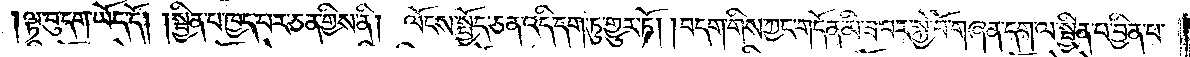ལྟ་བུ་དག་ཡོད་དོ། །སྦྱིན་པ་ཁྱད་པར་ཅན་གྱིས་ནི། ལོངས་སྤྱོད་ཅན་འདི་དག་ཏུ་གྱུར་ཏོ། །བདག་གིས་ཀྱང་གདོན་མི་ཟ་བར་སྐྱེ་བོ་གཞན་དག་ལ་སྦྱིན་པ་བྱིན་པ་
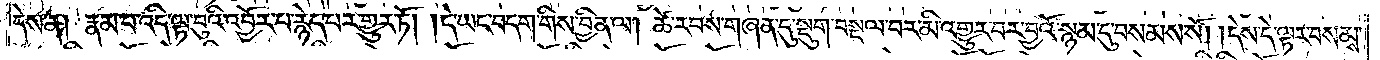དེས་ན། རྣམ་པ་འདི་ལྟ་བུའི་འབྱོར་པ་རྙེད་པར་གྱུར་ཏོ། །དེ་ཡང་བདག་གིས་བྱིན་ལ། ཚེ་རབས་གཞན་དུ་སྡུག་བསྔལ་བར་མི་འགྱུར་བར་བྱའོ་སྙམ་དུ་བསམས་སོ། །དེས་དེ་ལྟར་བསམས་
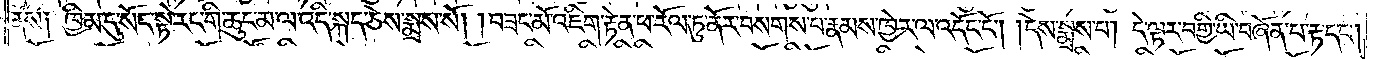ནས༑ ཁྱིམ་དུ་སོང་སྟེ་རང་གི་ཆུང་མ་ལ་འདི་སྐད་ཅེས་སྨྲས་སོ། །བཟང་མོ་འཇིག་རྟེན་ཕ་རོལ་ཏུ་ནོར་བསགས་པ་རྣམས་ཁྱེར་ལ་འདོང་ངོ༌། །དེས་སྨྲས་པ། དེ་ལྟར་བགྱི་ཡི་བཞོན་པ་རྟ་དང༌།
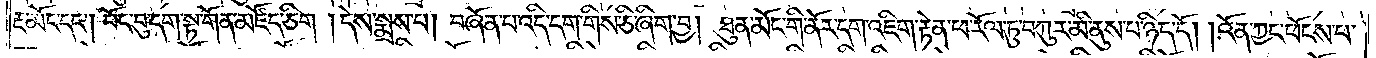རྔ་མོང་དང༌། བོང་བུ་དག་སྟ་གོན་མཛོད་ཅིག །དེས་སྨྲས་པ། བཞོན་པ་འདི་དག་གིས་ཅི་ཞིག་བྱ། ཐུན་མོང་གི་ནོར་དག་འཇིག་རྟེན་ཕ་རོལ་ཏུ་བཀུར་མི་ནུས་པ་ཉིད་དོ། །འོན་ཀྱང་ཕོངས་པ་
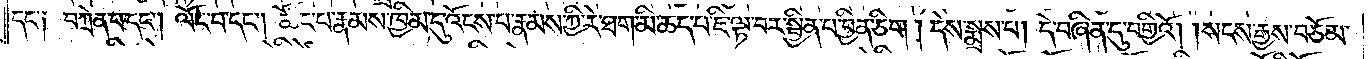དང་༑ བཀྲེན་པ་དང༌། ལོང་བ་དང༌། ཚོང་པ་རྣམས་ཁྱིམ་དུ་འོངས་པ་རྣམས་ཀྱི་རེ་ཐག་མི་ཆད་པ་ཇི་ལྟ་བར་སྦྱིན་པ་བྱིན་ཅིག །དེས་སྨྲས་པ། དེ་བཞིན་དུ་བགྱིའོ། །སངས་རྒྱས་བཅོམ་
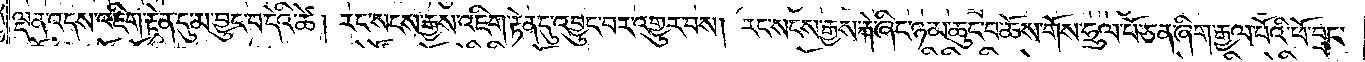ལྡན་འདས་འཇིག་རྟེན་དུ་མ་བྱུང་བ་དེའི་ཚེ། རང་སངས་རྒྱས་འཇིག་རྟེན་དུ་འབྱུང་བར་འགྱུར་བས། རང་སངས་རྒྱས་རྐེ་ཞིང་ཉམ་ཆུང་བ་ཆོས་གོས་ཧྲུལ་པོ་ཅན་ཞིག་རྒྱལ་པོའི་ཕོ་བྲང་
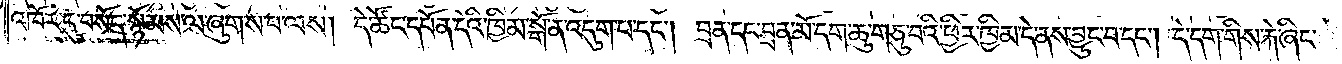འཁོར་དུ་བསོད་སྙོམས་ལ་ཞུགས་པ་ལས། དེ་ཚོང་དཔོན་དེའི་ཁྱིམ་སྒོ་ན་འདུག་པ་དང༌། བྲན་དང་བྲན་མོ་དག་ཆུ་གཅུ་བའི་ཕྱིར་ཁྱིམ་དེ་ནས་བྱུང་བ་དང༌། དེ་དག་གིས་རྐེ་ཞིང་
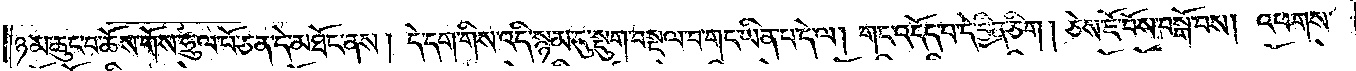ཉམ་ཆུང་བ་ཆོས་གོས་ཧྲུལ་པོ་ཅན་དེ་མཐོང་ནས། དེ་དག་གིས་འདི་སྙམ་དུ་སྡུག་བསྔལ་བ་གང་ཡིན་པ་དེ་ལ། གང་འདོད་པ་དེ་བྱིན་ཅིག། ཅེས་ཇོ་བོས་བསྒོ་བས། འཕགས་
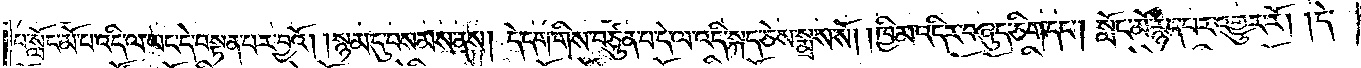པ་སློང་མོ་པ་འདི་ལ་ཡང་དེ་བསྟན་པར་བྱའོ། །སྙམ་དུ་བསམས་ནས། དེ་དག་གིས་བཙུན་པ་དེ་ལ་འདི་སྐད་ཅེས་སྨྲས་སོ། །ཁྱིམ་འདིར་བཞུད་ཅིག་དང༌། སློང་མོ་རྙེད་པར་འགྱུར་རོ། །དེ་
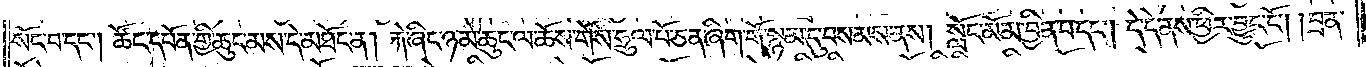སོང་བ་དང༌། ཚོང་དཔོན་གྱི་ཆུང་མས་དེ་མཐོང་ན། རྐེ་ཞིང་ཉམ་ཆུང་ལ་ཆོས་གོས་ཧྲུལ་པོ་ཅན་ཞིག་གོ་སྙམ་དུ་བསམས་ནས། སློང་མོ་མ་བྱིན་པ་དང༌། དེ་དེ་ནས་ཕྱིར་བྱུང་ངོ༌། །བྲན་
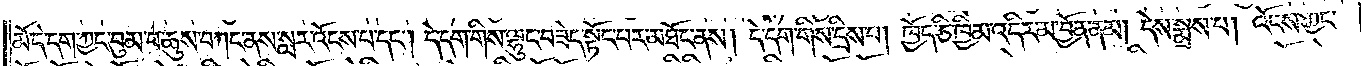མོ་དེ་དག་ཀྱང་བུམ་པ་ཆུས་བཀང་ནས་སླར་འོངས་པ་དང༌། དེ་དག་གིས་ལྷུང་བཟེད་སྟོང་པར་མཐོང་ནས། དེ་དག་གིས་དྲིས་པ། ཁྱོད་ཅི་ཁྱིམ་འདིར་མ་བྱོན་ནམ། དེས་སྨྲས་པ། འོངས་ཀྱང་
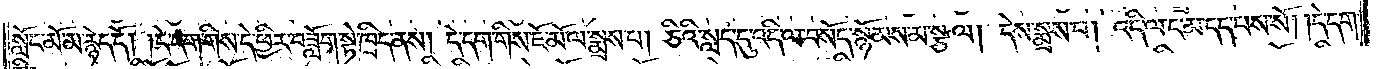སློང་མོ་མ་རྙེད་དོ། །དེ་དག་གིས་དེ་ཕྱིར་བཟློག་སྟེ་ཁྲིད་ནས། དེ་དག་གིས་ཇོ་མོ་ལ་སྨྲས་པ། ཅིའི་སླད་དུ་འདི་ལ་བསོད་སྙོམས་མ་སྩལ། དེས་སྨྲས་པ། འདི་ལ་ང་མ་དད་པས་སོ། །དེ་དག་
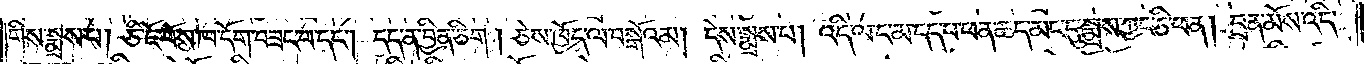གིས་སྨྲས་པ། ཅི་ཇོ་བོས་ཁ་དོག་བཟང་བ་དང༌། དད་ན་བྱིན་ཅིག། ཅེས་ཁྱོད་ལ་བསྒོའམ། དེས་སྨྲས་པ། འདི་ལ་ང་མ་དད་པ་ཕན་ཆད་མང་དུ་སྨྲས་ཀྱང་ཅི་ཕན། བྲན་མོས་འདི་
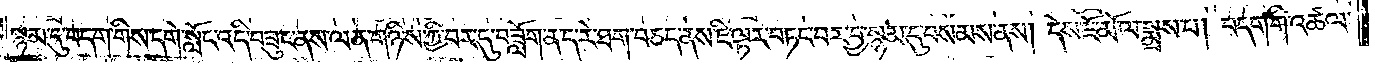སྙམ་དུ་བདག་གིས་དགེ་སློང་འདི་བཟུང་ནས་ལན་གཉིས་ཀྱི་བར་དུ་བཟློག་ན་ད་རེ་ཐག་བཅད་ནས་ཇི་ལྟར་བཏང་བར་བྱ་སྙམ་དུ་བསམས་ནས། དེས་ཇོ་མོ་ལ་སྨྲས་པ། བདག་གི་འཚལ་
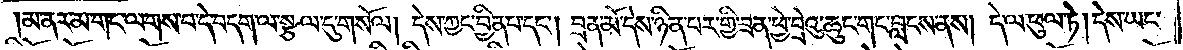མ་ནར་མ་གང་ལགས་པ་དེ་བདག་ལ་སྩལ་དུ་གསོལ། དེས་ཀྱང་བྱིན་པ་དང༌། བྲན་མོ་དེས་ཉིན་པར་གྱི་ཟན་ཕྱེ་བྲེའུ་ཆུང་གང་བླངས་ནས། དེ་ལ་ཕུལ་ཏེ། དེས་ཡང་
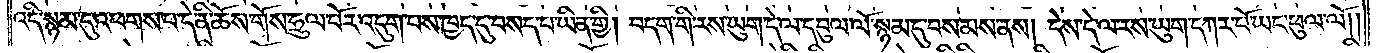འདི་སྙམ་དུ་འཕགས་པ་དེ་ནི་ཆོས་གོས་ཧྲུལ་པོར་འདུག་པས་ཁྱད་དུ་བསད་པ་ཡིན་གྱི། བདག་གི་རས་ཡུག་དེ་ལ་དབུལ་ལོ་སྙམ་དུ་བསམས་ནས། དེས་དེ་ལ་རས་ཡུག་དཀར་པོ་ཡང་ཕུལ་ལོ། །
